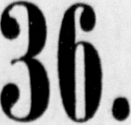No:36.
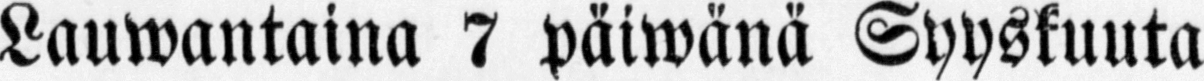Lauwantaina 7 päiwänä Syyskuuta
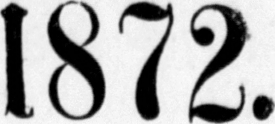1872.
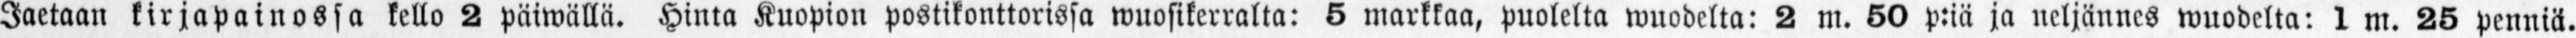Jaetaan kirjapainossa kello 2 päiwällä. Hinta Kuopion postikonttorissa wuosikerralta: 5 markkaa, puolelta wuodelta: 2 m. 60 p:iä ja neljännes wuodelta: 1 m. 25 penniä.
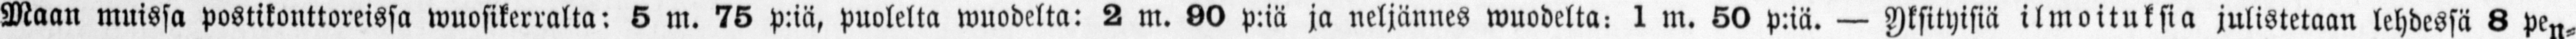Maan muissa postikonttoreissa wuosikerralta: 6 m. 75 p:iä, puolelta wuodelta: 2 m. 90 p:iä ja neljännes wuodelta: 1 m. 50 p:tä. — Yksityisiä ilmoituk sia julistetaan lehdessä 8 pen-
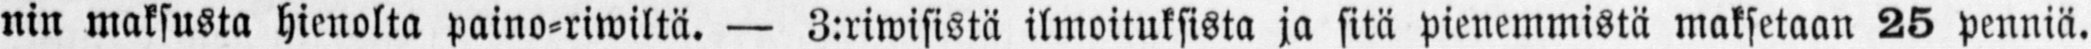nin maksusta hienolta paino-riwiltä. — 3:riwisistä ilmoituksista ja sitä pienemmistä maksetaan 25 penniä.
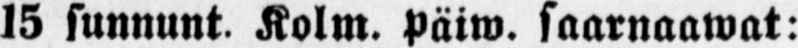15 sunnunt. Kolm. päiw. saarnaawat:
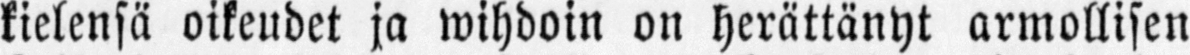kielensä oikeudet ja wihdoin on herättänyt armollisen
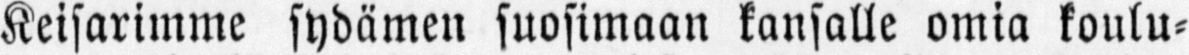Keisarimme sydämen suosimaan kansalle omia koulu-
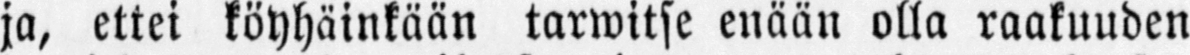ja, ettei köyhäinkään tarwitse enään olla raakuuden
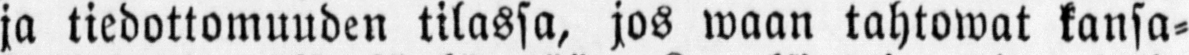ja tiedottomuuden tilassa, jos maan tahtowat kansa-
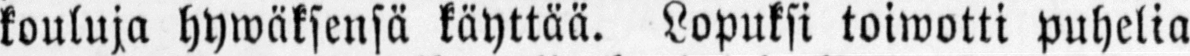kouluja hywäksensä käyttää. Lopuksi toiwotti puhelia
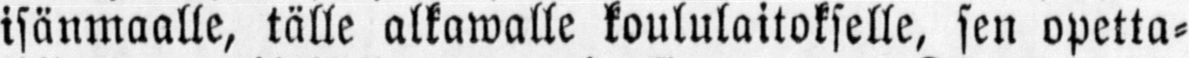isänmaalle, tälle alkawalle koululaitokselle, sen opetta-
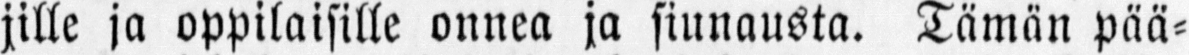jille ja oppilaisille onnea ja siunausta. Tämän pää-
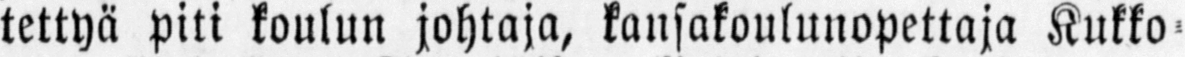tettyä piti koulun johtaja, kansakoulunopettaja Kukko-
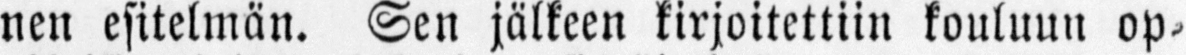nen esitelmän. Sen jälkeen kirjoitettiin kouluun op-
